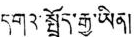དགའ་སྤྲོད་རྒྱུ་ཡོན།
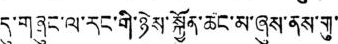དུ་གཞུང་ལ་རང་གི་ཉེས་སྐྱོན་ཆང་མ་ཞུས་ནས་གུ་
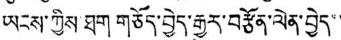ཡངས་ཀྱིས་ཐག གཅོད་བྱེད་རྒྱུར་བརྩོན་ལེན་བྱེད་་
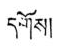དགོས།
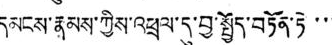དམངས་རྣམས་ཀྱིས་འཕྲལ་དུ་བྱ་སྤྱོད་བཏོན་ཏེ་་་
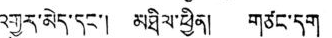འགྱུར་མེད་དང་། མཐིལ་ཕྱིན། གཙང་དག
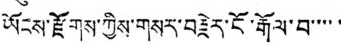ཡོངས་རྫོགས་ཀྱིས་གསར་བརྗེར་ངོ་རྒོལ་བ་་་་་
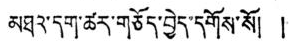མཐའ་དག་ཚར་གཅོད་བྱེད་དགོས་སོ། །
